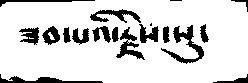ཟབ་པའི་རྗེས་སུ་
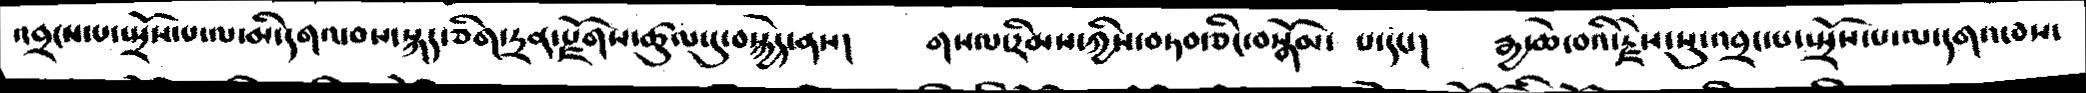འབྲངས་པ་སྤྲོས་པ་ལ་མི་དགའ་བས་སྐད་ཅིག་དྲན་རྫོགས་ཚུལ་དུ་བསྐྱེད་ནས།   གསལ་རིམས་ཀྱིས་བཏབ་ཅིང་བསྒོམ་ པ་དང་།  རྒྱ་ཆེ་བའི་རྗེས་སུ་འབྲང་པ་སྤྲོས་པ་ལ་དགའ་བས་
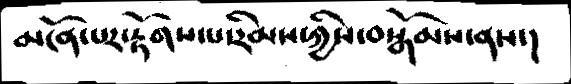མངོན་པར་རྟོགས་པ་རིམས་ཀྱིས་བསྒོམས་ནས་།
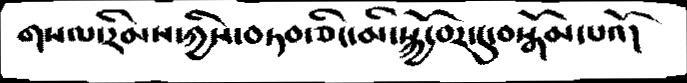གསལ་རིམས་ཀྱིས་བཏབ་ཅིང་མི་སྐྱོ་བར་དུ་བསྒོམ་པའོ།
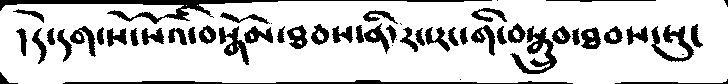།དེ་དག་སོ་སོའི་བསྒོམ་ཐབས་ནི་རང་རང་གི་བསྒྲུབ་ཐབས་སུ་
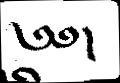༄༅།
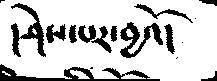།ཤེས་པར་བྱའོ།
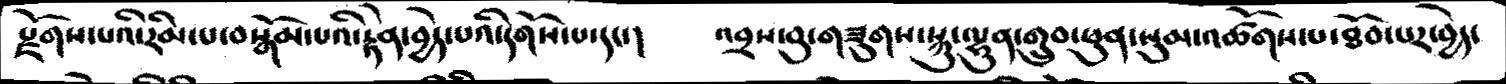རྫོགས་པའི་རིམ་པ་བསྒོམ་པའི་རྟེན་བྱེད་པའི་དགོས་པ་དང་།   འབྲས་བུ་གཟུགས་སྐུ་ལྷུན་གྲུབ་ཕུན་སུམ་འཚོགས་པ་ཐོབ་པར་བྱེད་
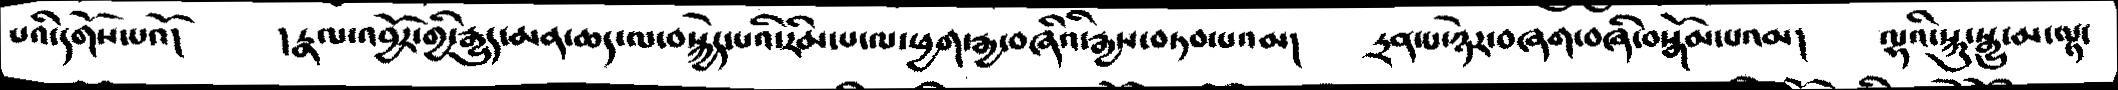པའི་དགོས་པའོ།   །རྣལ་འབྱོར་གྱི་རྒྱུད་མན་ཆད་ལ་བསྐྱེད་པའི་རིམ་པ་ལ་ཕྱག་རྒྱ་བཞིའི་རྒྱས་བཏབ་པའམ།   དྲན་པ་ཉེར་བཞག་བཞི་བསྒོམ་པའམ།   ལྷའི་སྐུ་སྒྱུ་མ་ལྟ་
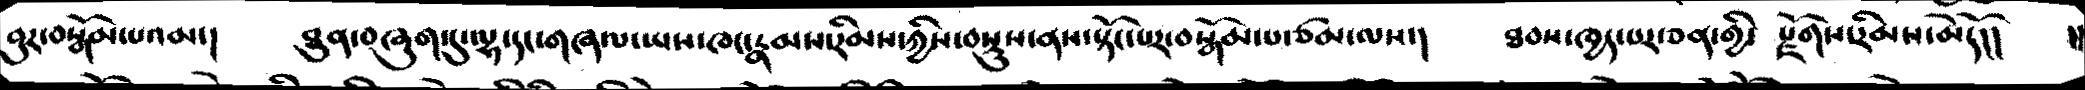བུར་བསྒོམ་པའམ།   ཐུན་བཞུག་དུ་ལྷ་དང་གཞལ་ཡས་ཁང་རྣམས་རིམས་ཀྱིས་བསྡུས་ནས་སྟོང་པར་བསྒོམ་པ་ཙམ་ལས་།  ཐབས་ཁྱད་པར་ཅན་གྱི་རྫོགས་རིམས་མེདོ།།  །།
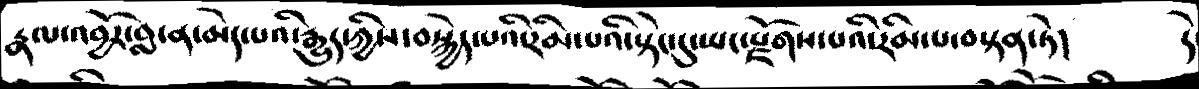རྣལ་འབྱོར་བླ་ན་མེད་པའི་རྒྱུད་ཀྱིས་བསྐྱེད་པའི་རིམ་པའི་སྟེང་དུ་ཡང་རྫོགས་པའི་རིམ་པ་བསྟན་ཏེ།    དེ
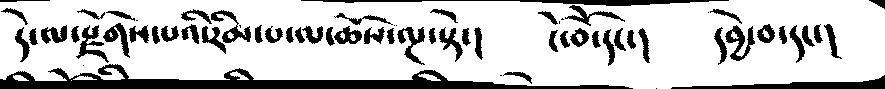དེ་ལ་རྫོགས་པའི་རིམ་པ་ལ་ཆོས་ལྔ་སྟེ་།   ངོ་བོ་དང་།  དབྱེ་བ་དང་།
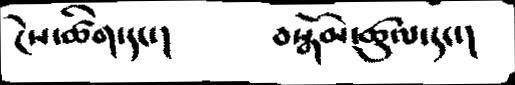ངེས་ཚིག་དང་།     བསྒོམ་ཚུལ་དང་།
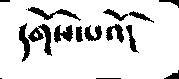དགོས་པའོ།
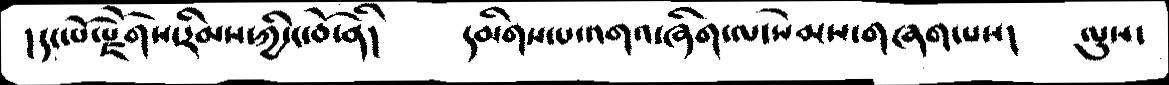།དང་པོ་རྫོགས་རིམས་ཀྱི་ང་བོ་ནི།   དམིགས་པ་འགའ་ཞིག་ལ་སེམས་གཞག་པས།  ལུས་
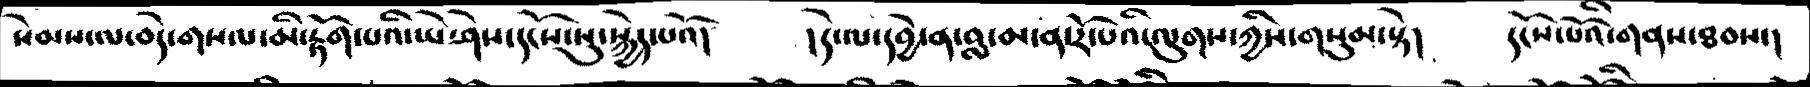སེམས་ལ་བདེ་གསལ་མི་རྟོག་པའི་ཡེ་ཤེས་དངོས་སུ་སྐྱེད་པའོ།   །དེ་ལ་དབྱེ་ན་བླ་མ་ན་རོ་པའི་ལུགས་ཀྱིས་གསུམ་སྟེ།   དངོས་པོའི་གནས་ཐབས།
